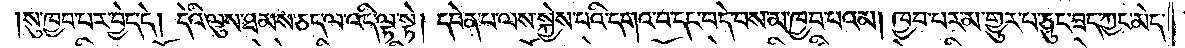།སུ་ཁྱབ་པར་བྱེད་དེ། དེའི་ལུས་ཐམས་ཅད་ལ་འདི་ལྟ་སྟེ། དབེན་པ་ལས་སྐྱེས་པའི་དགའ་བ་དང་བདེ་བས་མ་ཁྱབ་པའམ། ཁྱབ་པར་མ་གྱུར་པ་ཅུང་ཟད་ཀྱང་མེད་
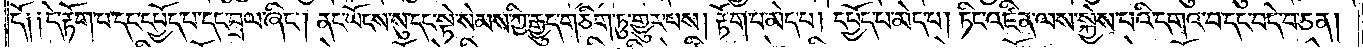དོ། །དེ་རྟོག་པ་དང་དཔྱོད་པ་དང་བྲལ་ཞིང༌། ནང་ཡོངས་སུ་དང་སྟེ་སེམས་ཀྱི་རྒྱུད་གཅིག་ཏུ་གྱུར་པས། རྟོག་པ་མེད་པ། དཔྱོད་པ་མེད་པ། ཏིང་འཛིན་ལས་སྐྱེས་པའི་དགའ་བ་དང་བདེ་བ་ཅན།
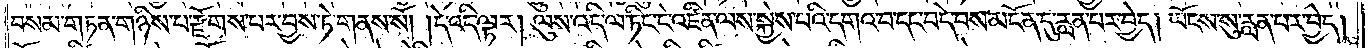བསམ་གཏན་གཉིས་པ་རྫོགས་པར་བྱས་ཏེ་གནས་སོ། །དེ་འདི་ལྟར། ལུས་འདི་ལ་ཏིང་ངེ་འཛིན་ལས་སྐྱེས་པའི་དགའ་བ་དང་བདེ་བས་མངོན་དུ་རླན་པར་བྱེད། ཡོངས་སུ་རླན་པར་བྱེད།
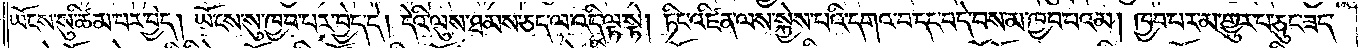ཡོངས་སུ་ཚིམ་པར་བྱེད། །ཡོངས་སུ་ཁྱབ་པར་བྱེད་དེ། དེའི་ལུས་ཐམས་ཅད་ལ་འདི་ལྟ་སྟེ། ཏིང་འཛིན་ལས་སྐྱེས་པའི་དགའ་བ་དང་བདེ་བས་མ་ཁྱབ་པའམ། ཁྱབ་པར་མ་གྱུར་པ་ཅུང་ཟད་
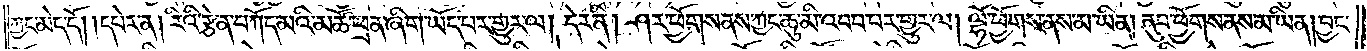ཀྱང་མེད་དོ། །དཔེར་ན། རིའི་རྩེ་ན་བཀོད་མའི་མཚོ་ཕྲན་ཞིག་ཡོད་པར་གྱུར་ལ། དེར་ནི། ཤར་ཕྱོགས་ནས་ཀྱང་ཆུ་མི་འབབ་པར་གྱུར་ལ། ལྷོ་ཕྱོགས་ནས་མ་ཡིན། ནུབ་ཕྱོགས་ནས་མ་ཡིན། བྱང་
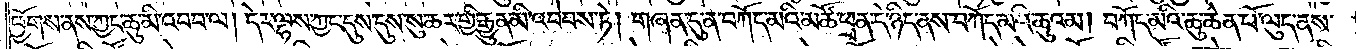ཕྱོགས་ནས་ཀྱང་ཆུ་མི་འབབ་ལ། དེར་ལྷས་ཀྱང་དུས་དུས་སུ་ཆར་གྱི་རྒྱུན་མི་འབེབས་ཏེ། གཞན་དུ་ན་བཀོད་མའི་མཚོ་ཕྲན་དེ་ཉིད་ནས་བཀོད་མའི་ཆུའམ། བཀོད་མའི་ཆུ་ཆེན་པོ་ལུད་ནས་
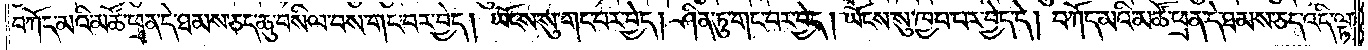བཀོད་མའི་མཚོ་ཕྲན་དེ་ཐམས་ཅད་ཆུ་བསིལ་བས་གང་བར་བྱེད། ཡོངས་སུ་གང་བར་བྱེད། ཤིན་ཏུ་གང་བར་བྱེད། ཡོངས་སུ་ཁྱབ་པར་བྱེད་དེ། བཀོད་མའི་མཚོ་ཕྲན་དེ་ཐམས་ཅད་འདི་ལྟ་
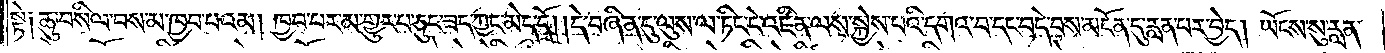སྟེ། ཆུ་བསིལ་བས་མ་ཁྱབ་པའམ། ཁྱབ་པར་མ་གྱུར་པ་ཅུང་ཟད་ཀྱང་མེད་དོ། །དེ་བཞིན་དུ་ལུས་ལ་ཏིང་ངེ་འཛིན་ལས་སྐྱེས་པའི་དགའ་བ་དང་བདེ་བས་མངོན་དུ་རླན་པར་བྱེད། ཡོངས་སུ་རླན་
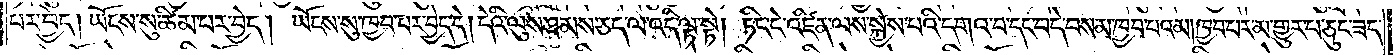པར་བྱེད། ཡོངས་སུ་ཚིམ་པར་བྱེད། ཡོངས་སུ་ཁྱབ་པར་བྱེད་དེ། དེའི་ལུས་ཐམས་ཅད་ལ་འདི་ལྟ་སྟེ། ཏིང་ངེ་འཛིན་ལས་སྐྱེས་པའི་དགའ་བ་དང་བདེ་བས་མ་ཁྱབ་པའམ། ཁྱབ་པར་མ་གྱུར་པ་ཅུང་ཟད་
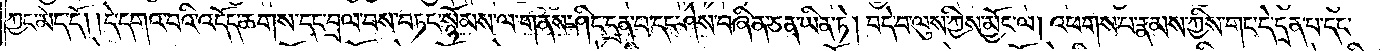ཀྱང་མེད་དོ། །དེ་དགའ་བའི་འདོད་ཆགས་དང་བྲལ་བས་བཏང་སྙོམས་ལ་གནས་ཤིང་དྲན་པ་དང་ཤེས་བཞིན་ཅན་ཡིན་ཏེ། བདེ་བ་ལུས་ཀྱིས་མྱོང་ལ། འཕགས་པ་རྣམས་ཀྱིས་གང་དེ་དྲན་པ་དང་
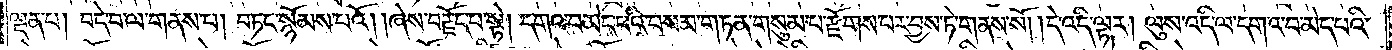ལྡན་པ། བདེ་བ་ལ་གནས་པ། བཏང་སྙོམས་པའོ། །ཞེས་བརྗོད་པ་སྟེ། དགའ་བ་མེད་པའི་བསམ་གཏན་གསུམ་པ་རྫོགས་པར་བྱས་ཏེ་གནས་སོ། །དེ་འདི་ལྟར། ལུས་འདི་ལ་དགའ་བ་མེད་པའི་
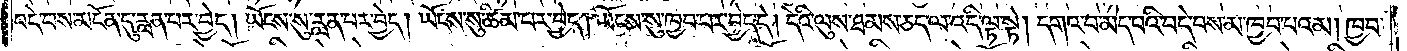བདེ་བས་མངོན་དུ་རླན་པར་བྱེད། ཡོངས་སུ་རླན་པར་བྱེད། ཡོངས་སུ་ཚིམ་པར་བྱེད། ཡོངས་སུ་ཁྱབ་པར་བྱེད་དེ། དེའི་ལུས་ཐམས་ཅད་ལ་འདི་ལྟ་སྟེ། དགའ་བ་མེད་པའི་བདེ་བས་མ་ཁྱབ་པའམ། ཁྱབ་
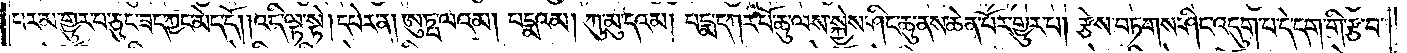པར་མ་གྱུར་པ་ཅུང་ཟད་ཀྱང་མེད་དོ། །འདི་ལྟ་སྟེ། དཔེར་ན། ཨུཏྤ་ལའམ། པདྨའམ། ཀུ་མུ་དའམ། པདྨ་དཀར་པོ་ཆུ་ལས་སྐྱེས་ཤིང་ཆུ་ནས་ཆེན་པོར་གྱུར་པ། རྩེས་བཏགས་ཤིང་འདུག་པ་དེ་དྲག་གི་རྩ་བ་
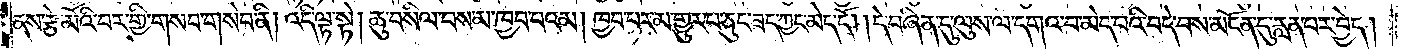ནས་རྩེ་མོའི་བར་གྱི་གསབ་གསེབ་ནི། འདི་ལྟ་སྟེ། ཆུ་བསིལ་བས་མ་ཁྱབ་པའམ། ཁྱབ་པར་མ་གྱུར་པ་ཅུང་ཟད་ཀྱང་མེད་དོ། །དེ་བཞིན་དུ་ལུས་ལ་དགའ་བ་མེད་པའི་བདེ་བས་མངོན་དུ་རླན་པར་བྱེད།
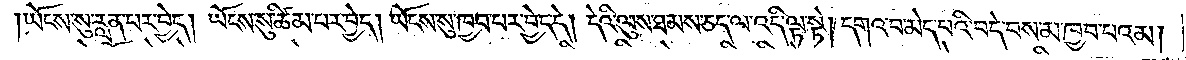ཡོངས་སུ་རླན་པར་བྱེད། ཡོངས་སུ་ཚིམ་པར་བྱེད། ཡོངས་སུ་ཁྱབ་པར་བྱེད་དེ། དེའི་ལུས་ཐམས་ཅད་ལ་འདི་ལྟ་སྟེ། དགའ་བ་མེད་པའི་བདེ་བས་མ་ཁྱབ་པའམ།
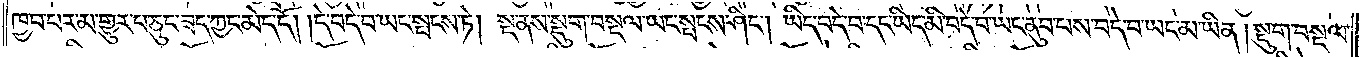ཁྱབ་པར་མ་གྱུར་པ་ཅུང་ཟད་ཀྱང་མེད་དོ། །དེ་བདེ་བ་ཡང་སྤངས་ཏེ། སྔ་ནས་སྡུག་བསྔལ་ཡང་སྤངས་ཤིང༌། ཡིད་བདེ་བ་དང་ཡིད་མི་བདེ་བ་ཡང་ནུབ་པས་བདེ་བ་ཡང་མ་ཡིན། སྡུག་བསྔལ་
